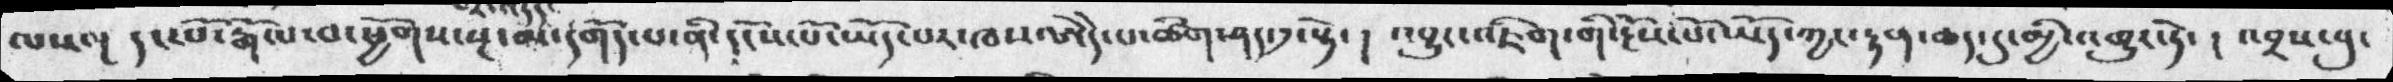ལས་།  དང་པོ་རྒོལ་བ་ཕྱིགས་སྔ་མ་དགོད་པ་ནི་དངོས་པོ་ཡོད་པར་ཁས་ཨེདེ་པ་ཚིག་ཤད་༡་སྟེ་།  འབྱུང་འཇིག་གི་རྔོས་པོ་ཡོད་ཀྱང་རྟན་ཆད་དུ་མྱི་འགྱུར་ཏེ་། འབྲས་བུ་
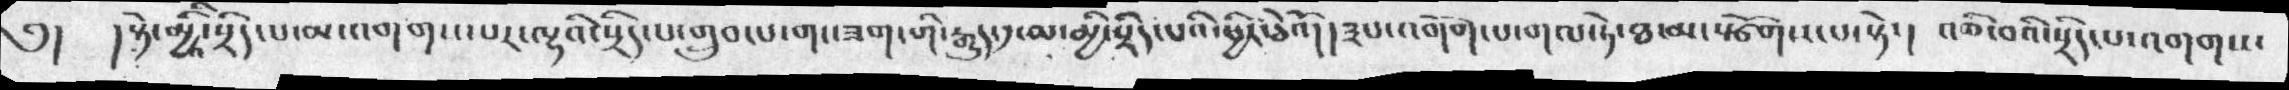༄།   ། སྟེ་མྱིའི་སྲིད་པ་མ་འགགས་པར་ལྷའི་སྲིད་པ་གྲུབ་པ་གང་ཟག་གི་རྒྱུད་༡་མ་མྱི་སྲིད་པའི་ཕྱིར་ཅེའོ།།  ༣པ་འགོག་པ་གལ་ཏེ་ཐ་མ་སྩོགས་པ་སྟེ་།  འཆི་བའི་སྲིད་པ་འགགས་
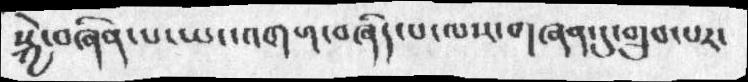སྐྱེ་བཞིན་པ་ཡང་འགག་བཞིད་པ་ལས་གཞན་དུ་གྲུབ་པར་
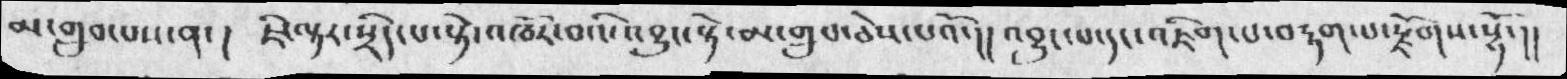མ་གྲུབ་པས་ན་། ཇོ་ལྟར་སྲིད་པ་སྟེ་འཁོར་བའི་འབྱུང་སྟེ་མ་གྲུབ་ཅེས་པའོ་།།འབྱུང་པ་དང་འཇིག་པ་བརྟག་པ་རྫོགས་སྷོ་།།
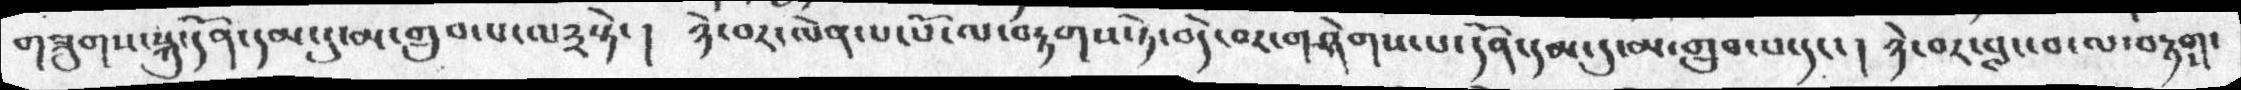གཟུགས་སྐུ་དོན་དམ་དུ་མ་གྲུབ་པ་ལ༣སྟེ་།    ཉེ་བར་ལེན་པ་པོ་ལ་བརྟགས་ཏེ་བདེ་བར་གཤེགས་པ་དོན་དམ་དུ་མ་གྲུབ་པ་དང་།  ཉེ་བར་བླང་བ་ལ་བརྟགས་
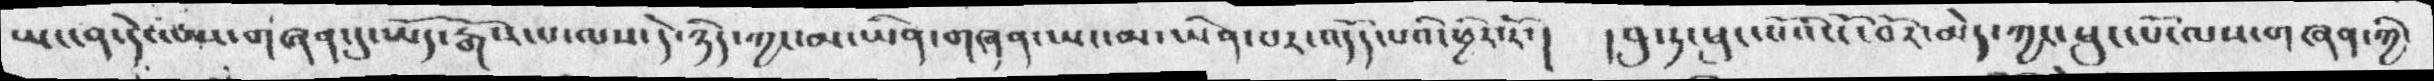ཡང་ན་དེ་ལས་གཞཉ་དུ་ཡོད་རྒོས་པ་ལས་དེ་ཉིད་ཀྱང་མ་ཡིན་གཞན་ཡང་མ་ཡིན་པར་འདོད་པའི་ཕྱིར་རོ་།  །བུ་ཏ་ཕུང་པོའི་ངོ་བོ་མེད་ཀྱང་ཕུང་པོ་ལས་གཞན་ཀྱི་
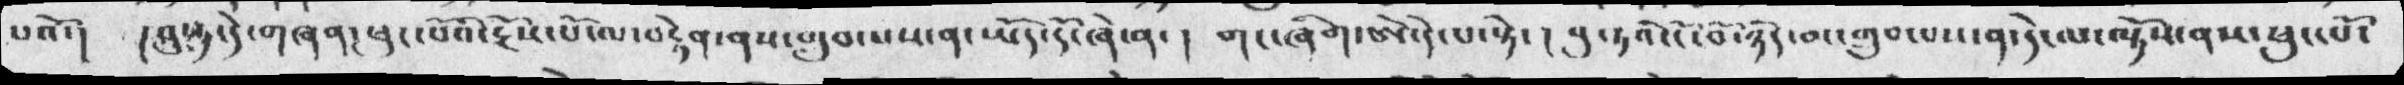པའོ་།  ། བུསྟ་དེ་གཞན་ཕུང་པོའི་རྔོས་པོ་ལ་བརྟེན་ནས་གྲུབ་པས་ན་ཡོད་དོ་ཞེ་ན་།  གང་ཞིག་ཨེ་དེ་པ་སྟེ་།  བུ་ཏའི་ངོ་བོ་ཉིད་མ་གྲུབ་པས་ན་དེ་ལ་ལྟོས་ནས་ཕུང་པོ་
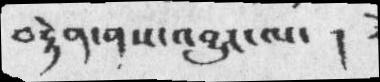བརྟེན་ནས་འབྱུང་ལ་།
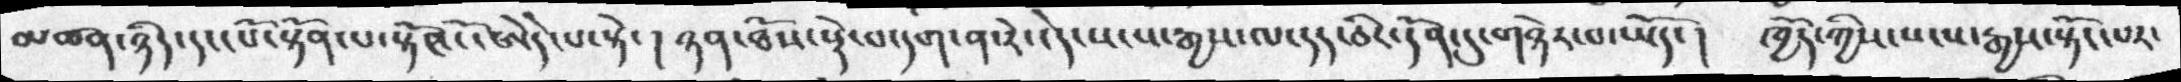མཚན་ཉིད་དང་པོ་སྟོན་པ་སྟོང་ངོ་ཨེདེ་པ་སྟེ་། ཉན་ཐོས་སྡེ་བ་དག་ན་རེ་དེ་སངས་རྒྱས་ལ་དད་ཅིང་དོན་དུ་གཉེར་བ་ཡོད་། ཁྱོད་ཀྱིས་སངས་རྒྱས་སྟོང་པར་
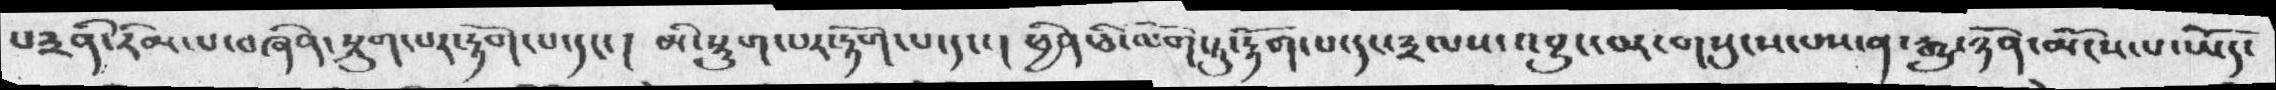པ༣ནི་རིམ་པ་བཞིན་སྡུག་པར་རྟོག་པ་དང་། མི་སྡུག་པར་རྟོག་པ་དང་། ཕྱིན་ཅི་ལོག་ཏུ་རྟོག་པ་དང་༣ལས་འབྱུང་བར་གསུངས་པས་ན་རྒྱུ་ཉོན་མོངས་པ་ཡོད་
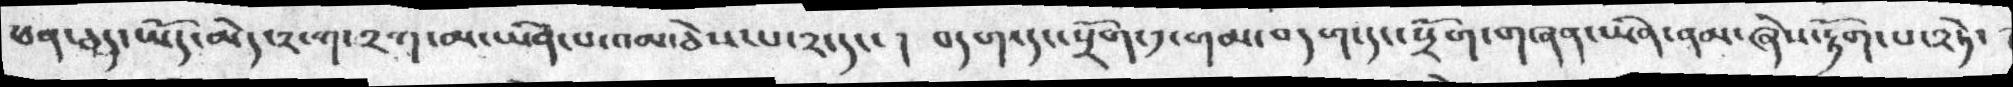ཕན་ཅད་ཡོད་མེད་༢་ག་༢ག་མ་ཡིན་པ་འམ་ཅེས་པ་༢་དང་།  བདག་དང་སྲོག་༡་གམ་བདག་དང་སྲོག་གཞན་ཡིན་ནམ་ཞེས་རྟོག་པ་༢ཏེ་
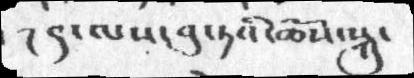།༩་ལས་བུ་ཏའི་ཆོས་སྐུ་
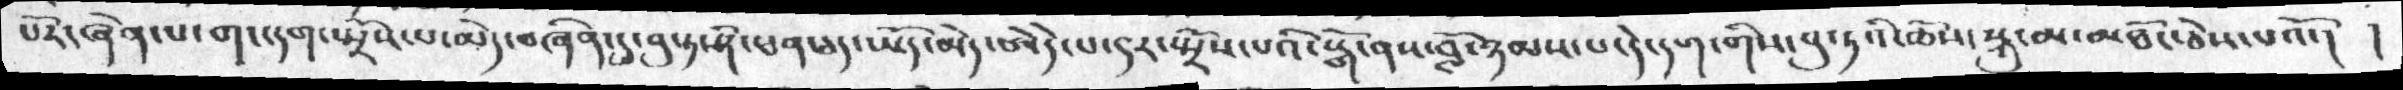པོར་ཞེན་པ་གང་དག་སྤྲོས་པ་མེད་བཞིན་དུ་བུ་ཏ་ཤི་ཕན་ཅད་ཡོད་མེད་ཨེདེ་པ་༩ར་སྤྲོས་པའི་སྒོ་ནས་བློ་ཉམས་པ་དེ་དག་གིས་བུ་ཏའི་ཆོས་སྐུ་མ་མཐོང་ཅེས་པའོ་། །
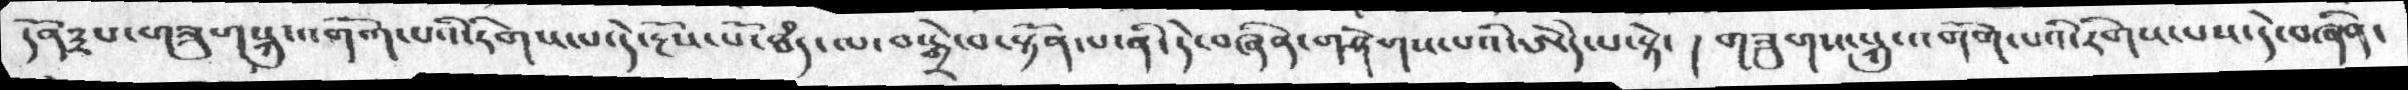དོན༣པ་གཟུགསྐུ་འགོག་པའི་རིགས་པ་དེ་རྔོས་པོ་ཐཾད་ལ་བསྒྲེ་བ་སྟོན་པ་ནི་དེ་བཞིན་གཤེགས་པའི་ཨེདེ་པ་སྟེ་། གཟུགས་སྐུ་འགོག་པའི་རིགས་པས་དེ་བཞིན་
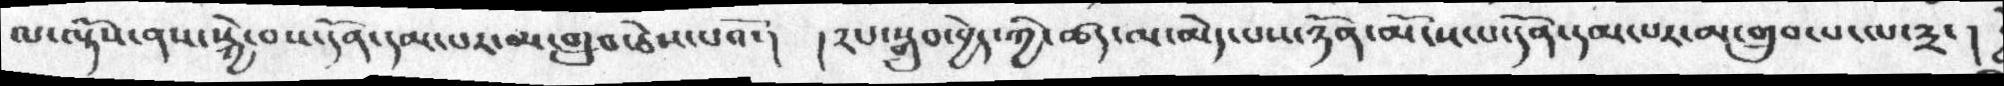ལ་ལྟོས་ནས་སྐྱེ་བས་དོན་དམ་པར་མ་གྲུབ་ཅེས་པའོ་།  །༢པ་སྒྲུབ་བྱེད་ཀྱི་ཚད་མ་མེད་པས་ཉོན་མོངས་པ་དོན་དམ་པར་མ་གྲུབ་པ་ལ་༣་།
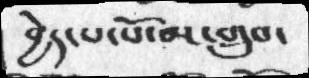བྱེད་པ་པོ་མ་གྲུབ་
